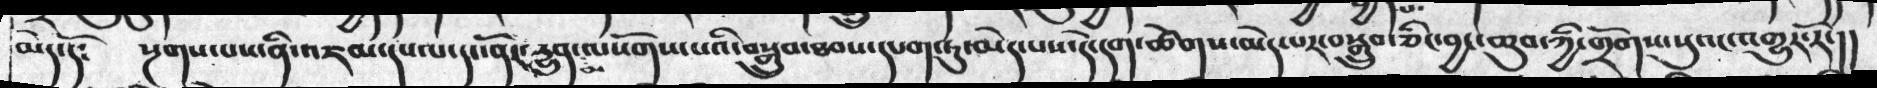མེད་དོ༴   སྔགས་པས་ན་འཇམ་དཔལ་དང་ནོར་དྱུན་མ་ལསོགས་པའི་བསྒྲུབ་ཐབས་དཔག་ཏུ་མེད་པས་དེ་དག་ཚེགས་མེད་པར་བསྒྲུབ་ཅིང་བྱང་ཆུབ་ཀྱི་གྲོགས་སུའང་འགྱུར་རོ་།།
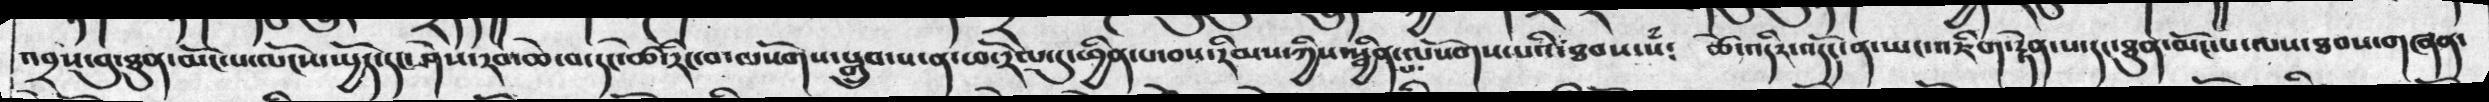འབྲས་བུ་ཐུན་མོང་པ་ལོངས་ཡྱོད་དང་ཤེས་རབ་ཆེ་བ་དང་ཚེ་རིང་བ་ལསོགས་སྒྲུབ་པ་ན་ཕ་རོལ་དུ་ཕྱིན་པ་བས་རིམས་ཀྱིས་སྦྱིན་པ་ལསོགས་པའི་ཐབས་སཾ༴  ཚེ་འདིར་འདོད་ན་ཡང་འཇིག་རྟེན་པ་དང་ཐུན་མོང་པ་ལས་ཐབས་གཞན་
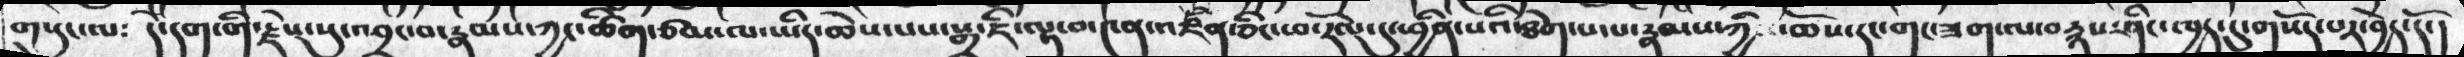གསུང་ལ༴ དེ་དག་གི་རྗེས་སུ་འབྲང་བ་རྣམས་ཀྱང་ཚིག་ཙམ་ལ་ཡིད་ཆེས་པས་སྒྲ་ཇི་ལྟ་བ་༤ན་འཛིན་ཅིང་ཕ་རོལ་དུ་ཕྱིན་པའི་ཐེག་པ་པ་རྣམས་ཀྱི ་ཆོས་དང་གང་ཟག་ལ་བརྙས་ཤིང་ཁྱད་དུ་གསོད་པར་བྱེད་དོ་།
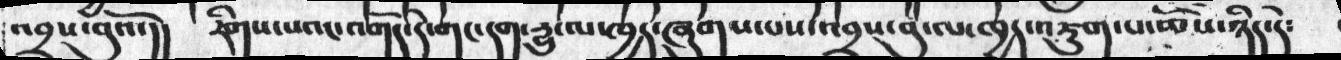འབྲས་བུའོ་།། རིགས་པའང་འགོད་དེ་གང་དག་རྱུ་ལ་ཁྱད་ཞུགས་པས་འབྲས་བུ་ལ་ཁྱད་འཇུག་པ་ཆོས་ཉིད་དེ༴
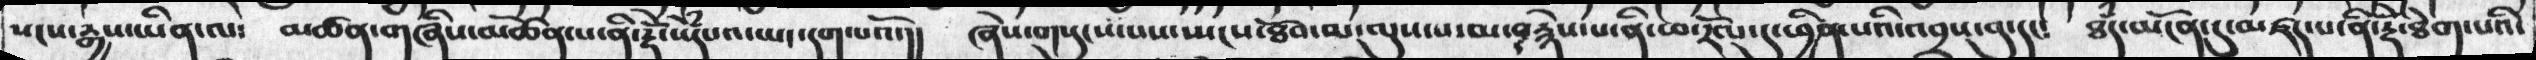སངས་རྒྱས་ཡིན་ལ༴ མཚན་གཞིས་མཚོན་པ་ནི་རྡོེ་སེཾདཔའ་ཡང་དག་པའོ་།།  ཞེས་གསུངས་པས་སྤངས་ཐོབ་མ་ལུས་པ་མ་བརྙེད་པ་ནི་ཕ རོལ་དུ་ཕྱིན་པའི་འབྲས་བུ་དང༴  ཐཾད་མངོན་དུ་མཛད་པ་ནི་རྡོེ་ཐེག་པའི་
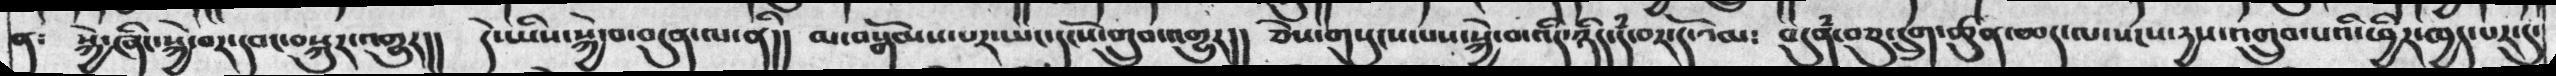ན༴  སྐྱེ་ཞིང་སྐྱེ་བར་དབང་བསྐུར་འགྱུར།།  དེ་ཡིས་སྐྱེ་བ་བདུན་ལ་ནི།།  མ་བསྒོམས་པར་ཡང་དངོས་གྲུབ་འགྱུར།།  ཅེས་གསུངས་པས་སྐྱེ་བ་འདི་ཉིད་ད་བར་དོ་འམ༴  བདུན་བཅུ་དྲུག་ཚུན་ཆད་ལ་སངས་དྱས་འགྲུབ་པའི་ཕྱིར་ཁྱད་པར་དུ་
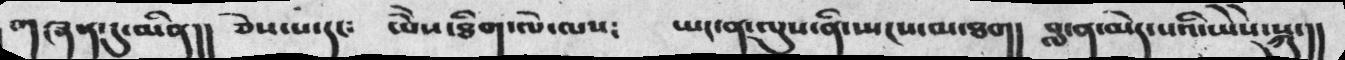གཞན་དུ་མིན།།  ཅེས་པ་དང༴  ཡཻས་ཐིག་ལེ་ལས༴  ཡང་ན་ལུས་ནི་སྤངས་མ་ཐག།  བླ་ན་མེད་པའི་ཡཻས་སྐུ་།།
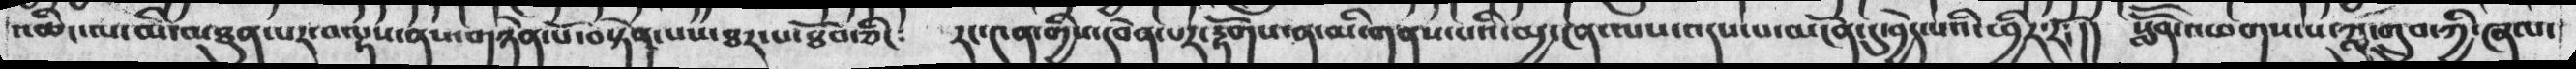འཆིང་ལ་མི་མཐུན་པར་བལྟས་ནས་གཉེན་པོ་བསྟེན་པས་ཐར་པ་ཐོབ་ཅིང༴ རང་༤ན་གྱིས་དབེན་པར་རྟོགས་ན་མི་གནས་པའི་མྱ་ངན་ལས་འདས་པ་མངོན་དུ་བྱེད་པའི་ཕྱིར་རོ༴།། སློོབ་འཕགས་པ་ཀླུ་གྲུབ་ཀྱི་ཞལ་
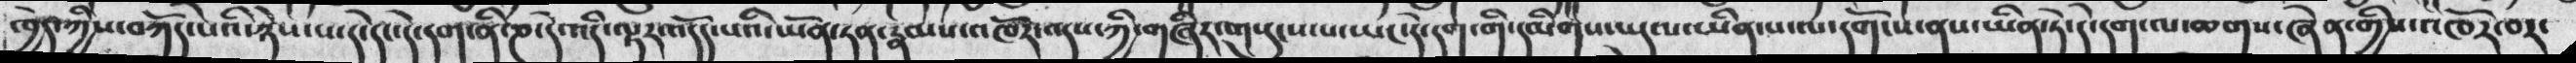ཁྱེད་ཀྱིས་བཀོད་པའི་ཉེས་པ་དེ་དང་དེ་དག་ནི་ཎ་དེ་འདི་ལྟར་འདོད་པའི་ཡོན་ཏན་རྣམས་འཁོར་འདས་ཀྱི་གཞིར་གསུངས་པ་ཡང་དེ་དག་གི་དམིགས་ཡུལ་ཡིན་པ་ལ་དགོངས་ནས་ཡིན་ཏེ་དེ་དག་ལ་ཆགས་ཞེན་གྱིས་འཁོར་བར་
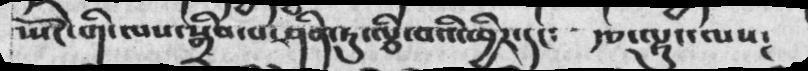སྤང་གི་ལས་སྒྲིབ་པ་ཤིན་ཏུ་ལྕི་བའི་ཕྱིར་དང༴  རྩ་ལྟུང་ལས༴
